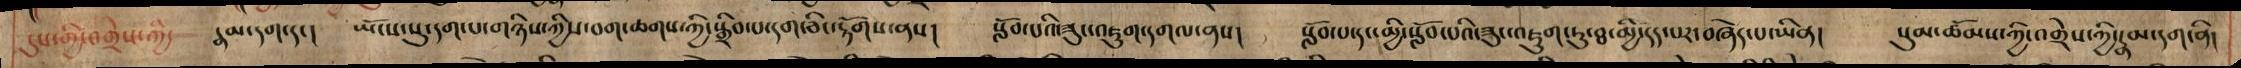དུས་ཀྱི་བགྲེས་ཀྱི་ རྣམ་དག་དང། ཡོངས་སུ་དག་པ་གཉིས་ཀྱིས་བག་ཆགས་ཀྱི་སྒྲིབ་པ་དག་ཅིང་རྟོགས་ནས། སློབ་པའི་ཟུང་འཇུག་དགལ་ནས། སློབ་པ་དང་མྱི་སློབ་པའི་ཟུང་འཇུག་ཏུ་ཐ་མྱི་དད་པར་བཞེད་པ་ཡིན། སུམ་ཚོམས་ཀྱི་འགྲེས་ཀྱི་རྣམ་དག་ནི།
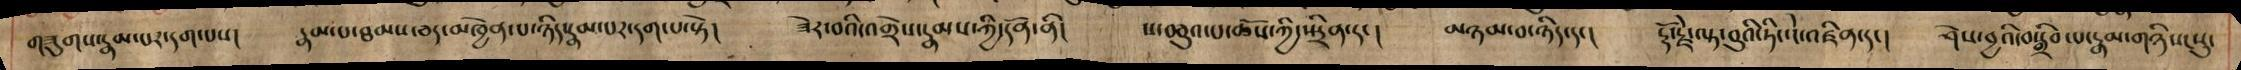གཟུགས་རྣམ་པར་དག་པས། རྣམ་པ་ཐམས་ཅད་མཁྱེན་པ་ཉིད་རྣམ་པར་དག་པ་སྟེ། ཟེར་བའི་འགྲེས་རྣམས་ཀྱི་དོན་ནི། ས་བཅུའ་པ་ཆོས་ཀྱི་སྲིན་དང། མཉམ་བ་ཉིད་དང། རྡོ་རྗེ་ལྟ་བུའི་ཏིང་ངེ་འཛིན་དང། ཤེས་བྱའི་བསྒྲིབ་པ་རྣམ་གཉིས་སུ་
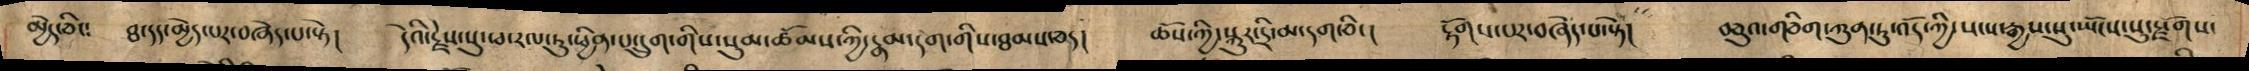མྱེད་ཅིང: ཐ དད་མྱེད་པར་བཞེད་པ་སྟེ། དེའི་རྗེས་སུ་ཕ་རལ་ཏུ་ཕྱིན་པ་དྲུག་གིས་སུམ་ཚོམས་ཀྱི་རྣམ་དག་གིས་ཐམས་ཅད། ཆོས་ཀྱི་སྐུར་དྲི་མ་དག་ཅིང། རྟོགས་པར་བཞེད་པ་སྟེ། བཅུའ་གཅིག་ཀུན་ཏུ་འོད་ཀྱི་སངས་རྒྱས་སུ་ཡོངས་སུ་སྫོགས་
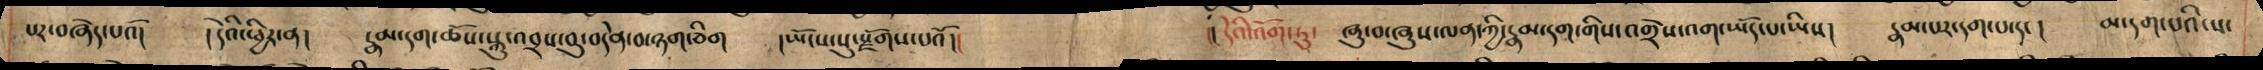པར་བཞེད་པའོ། །དེའི་ཕྱིར་ན། རྣམ་དག་ཆོས་སྐུ་འབྲས་བུ་བདེན་བ་ཉག་ཅིག །ཡོངས་སུ་སྫོགས་པའོ།། །།དེའི་འོག་ཏུ་ ཞུ་བ་ཞཱུས་ལན་ཀྱི་རྣམ་དག་གིས་འགྲེས་འག་ཡོད་པ་ཡིས། རྣམ་པར་དག་པ་དང། མ་དག་པའི་ས་
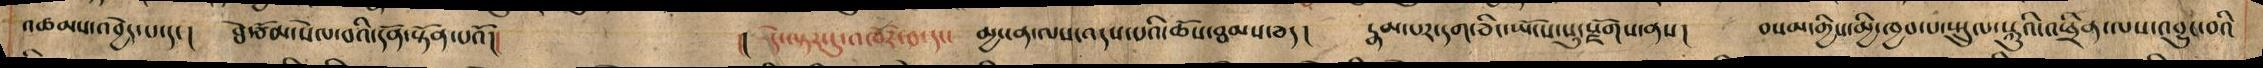འཚམས་འབྱེད་པ་དང། ཐེ་ཙོམ་སེལ་བའི་དོན་སྟོན་པའོ།། །། དེ་ལྟར་དུ་འཁོར་བ་དང་ མྱ་ངན་ལས་འདས་པའི་ཆོས་ཐམས་ཅད། རྣམ་པར་དག་ཅིང་ཡོངས་སུ་སྫོགས་ནས། བསམ་གྱིས་མྱི་ཁྱབ་པ་སྤྲུལ་སྐུའི་འཕྲིན་ལས་འབྱུང་བའི
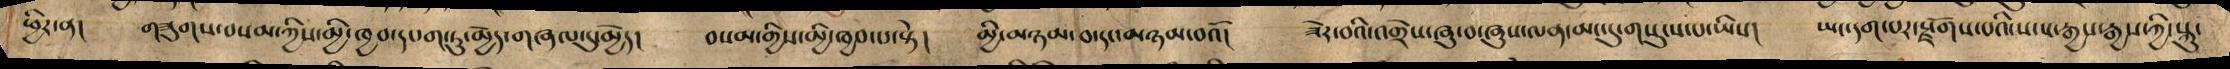ཕྱིར་ན། གཟུགས་བསམ་ཀྱིས་མྱི་ཁྱབ་དཔག་ཏུ་མྱེད་གཞལ་དུ་མྱེད། བསམ་གྱིས་མྱི་ཁྱབ་པ་སྟེ། མྱི་མཉམ་བ་དང་མཉམ་བའོ། ཟེར་བའི་འགྲེས་ཞུ་བ་ཞུས་ལན་མང་དུ་གསུངས་པ་ཡིས། ཡང་དག་པར་སྫོགས་པའི་སངས་རྒྱས་རྒྱས་ཀྱི་སྐུ་
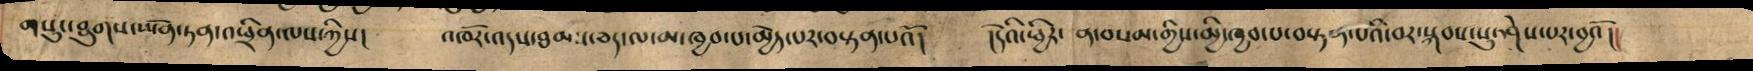གསུང་ཐུགས་ཡོན་ཏན་འཕྲིན་ལས་ཀྱིས། འཁོར་འདས་ཐམས་ཅད་ལ་མ་ཁྱབ་པ་མྱེད་པར་བསྟན་པའོ། །དེའི་ཕྱིར་ ན་བསམ་གྱིས་མྱི་ཁྱབ་པ་བསྟན་པའི་བར་བར་སྐབས་སུ་ཤེས་པར་བྱའོ།།
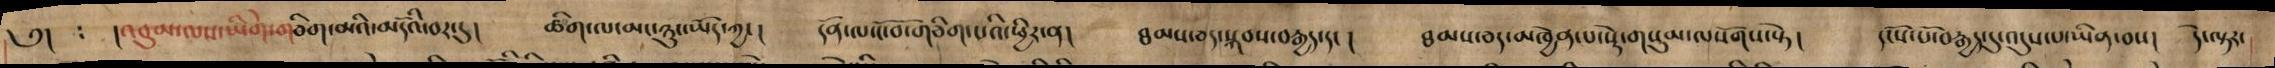༅། : །འབུམ་ལས་ཡི་གེ་གཅིག་མའི་མདོའི་བར་དུ། ཚིག་ལ་མང་ཉུང་ཡོད་ཀྱང། དོན་ལ་ངོ་བོ་གཅིག་པའི་ཕྱིར་ན། ཐམས་ཅད་སྐབས་བརྒྱད་དང ། ཐམས་ཅད་མཁྱེན་པ་སྟེ་གསུམ་ལསོགས་སྟེ། དངོས་པོ་བརྒྱད་དུ་འདུས་པ་ཡིན་བས། དེ་ལྟར་
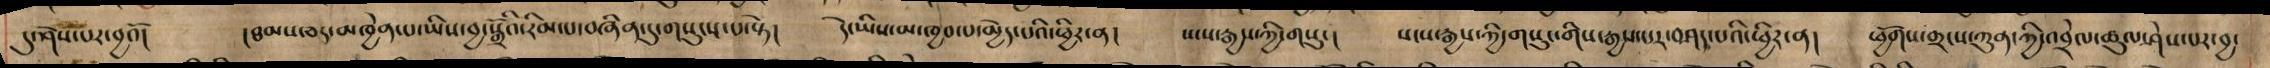དུ་ཤེས་པར་བྱའོ། །ཐམས་ཅད་མཁྱེན་པ་ཡིས་བྱ་སྒྲོའི་རིམ་པ་བཞིན་དི་གསུངས་པ་སྟེ། དེ་ཡིས་མ་ཁྱབ་པ་མྱེད་པའི་ཕྱིར་ན། སངས་རྒྱས་ཀྱི་གསུང། སངས་རྒྱས་ཀྱི་གསུང་གིས་རྒྱས་པར་བཤད་པའི་ཕྱིར་ན། ཕྱོགས་གྲངས་ཀུན་ཀྱི་འབྲེལ་ཚུལ་ཤེས་པར་བྱ་
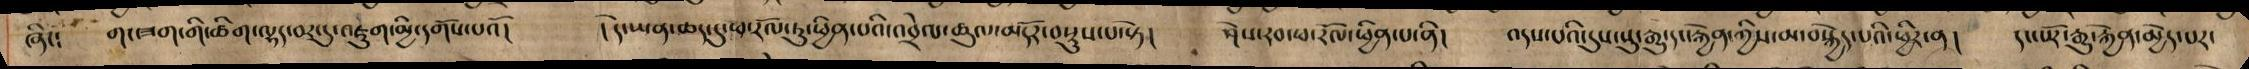ཞིང: གང་ཟག་གི་ཚིག་ལྷད་བར་དུ་འཇུག་མྱི་དགོས་པའོ། ། དེ་ཡན་ཆད་དུ་ཕ་རོལ་ཏུ་ཕྱིན་པའི་འབྲེལ་ཚུལ་མདོར་བསྡུས་པ་སྟེ། ཤེས་རབ་ཕ་རོལ་ཕྱིན་པ་ནི། འདས་པའི་དུས་སུ་རྒྱུ་དང་རྐྱེན་ཀྱིས་མ་བསྐྱེད་པའི་ཕྱིར་ན། དང་པོར་རྒྱུ་རྐྱེན་མྱེད་པར་
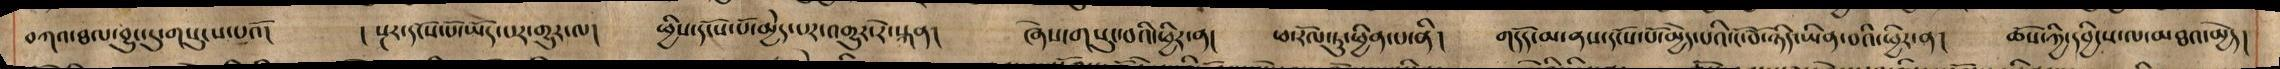བཀའ་ཐལ་བྱུང་དུ་གསུངས་པའོ། ། སྔར་དངོས་པོ་ཡོད་པར་གྱུར་ལ། ཕྱིར་དངོས་པོ་མེུད་པར་འགྱུར་རེ་སྐན། ཞེས་གསུང་བའི་ཕྱིར་ན། ཕ་རོལ་ཏུ་ཕྱིན་པ་ནི། གདོད་མ་ནས་དངོས་པོ་མྱེད་པའི་ངོ་བོ་ཉིད་ཡིན་བའི་ཕྱིར་ན། ཆོས་ཀྱི་དབྱིངས་ལ་མཐའ་མྱེད།
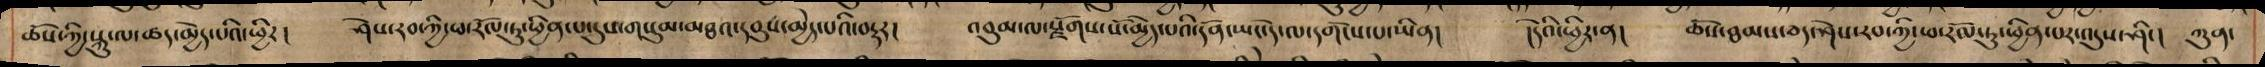ཆོས་ཀྱི་སྐུ་ལ་ཚད་མྱེད་པའི་ཕྱིར། ཤེས་རབ་ཀྱི་ཕ་རོལ་ཏུ་ཕྱིན་པ་དུས་གསུམ་མཐའ་དབུས་མྱེད་པའི་བརྡར། འབུམ་ལ་སྫོགས་སོ་མྱེད་པའི་དོན་ཡང་དེ་ལ་དགོངས་པ་ཡིན། །དེའི་ཕྱིར་ན། ཆོས་ཐམས་ཅད་ཤེས་རབ་ཀྱི་ཕ་རོལ་ཏུ་ཕྱིན་པར་འདུས་ཤིང། ཀུན་
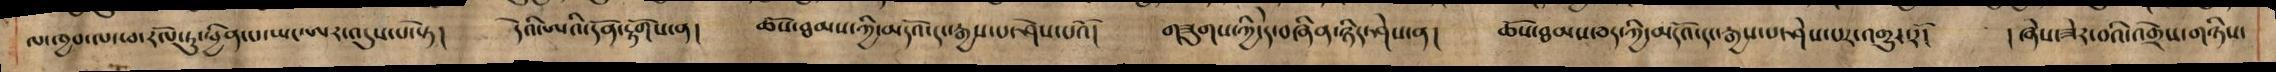ལ་ཁྱབ་ལ་ཕ་རོལ་ཏུ་ཕྱིན་པ་ཡང་ཨར་འདུས་པ་སྟེ། དེའི་ཨའི་དོན་རྟོགས་ན། ཆོས་ཐམས་ཅད་ཀྱི་མདོའ་དང་རྒྱས་པ་ཤེས་པའོ། གཟུགས་ཀྱི་དེ་བཞིན་ཉིད་ཤེས་ན། ཆོས་ཐམས་ཅད་ཀྱི་མདོའ་དང་རྒྱས་པ་ཤེས་པར་འགྱུར་རོ། །ཞེས་ཟེར་བའི་འགྲེས་གཉིས་
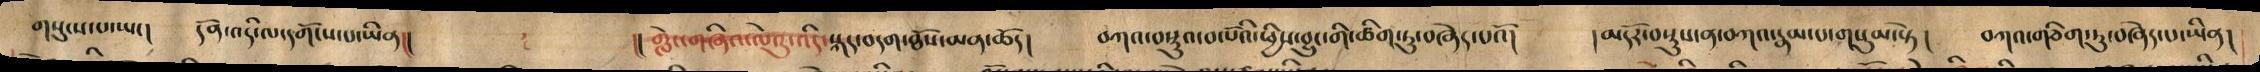གསུངས་པ་ཡང། དོན་འདི་ལ་དགོངས་པ་ཡིན།། །། གླེང་གཞིའ་ལེའུ་འདི་སྐད་བདག་ཐོས་མན་ཆོད། བཀའ་བསྡུའ་བ་པོའི་ཕྱིས་བྱུང་གི་ཚིག་ཏུ་བཞེད་པའོ། །མདོར་བསྡུས་ན་བཀའ་རྣམ་པ་གསུམ་སྟེ། བཀའ་གཅིག་ཏུ་བཞེད་པ་ཡིན།
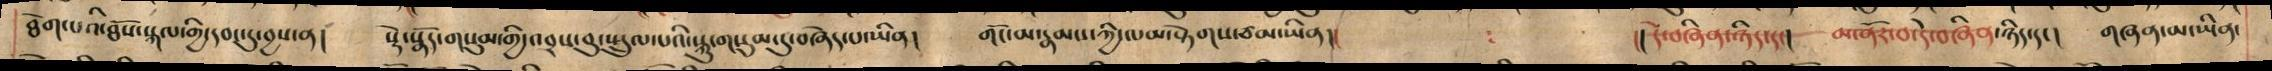ཐེག་པའི་ཐོས་སྐལ་གྱི་དབང་དུ་བྱས་ན། སྡེ་སྣོད་གསུལ་གྱི་འབྲས་བུ་སྤྲུལ་པའི་སྐུ་གསུམ་དུ་བཞེད་པ་ཡིན། གོང་མ་རྣམས་ཀྱི་ལམ་སྟེགས་ཙམ་ཡིན།། །། དེ་བཞིན་ཉིད་དང། མ་ནོར་བ་དེ་བཞིན་ཉིད་དང། གཞན་མ་ཡིན་
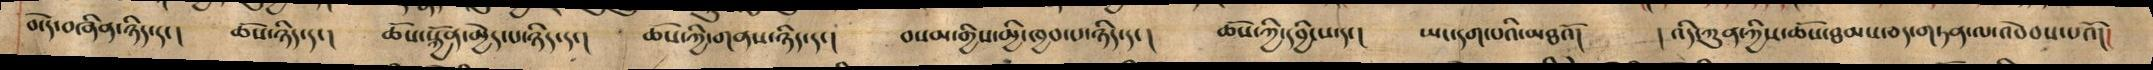བ་དེ་བཞིན་ཉིད་དང། ཆོས་ཉིད་དང། ཆོས་སྐྱོན་མྱེད་པ་ཉིད་དང། ཆོས་ཀྱི་གཉས་ཉིད་དང། བསམ་གྱིས་མྱི་ཁྱབ་པ་ཉིད་དང། ཆོས་ཀྱི་དབྱིངས་དང། ཡང་དག་པའི་མཐའོ། ། འདི་ཀུན་ཀྱིས་ཆོས་ཐམས་ཅད་གཏན་ལ་འབེབས་པའོ།།
